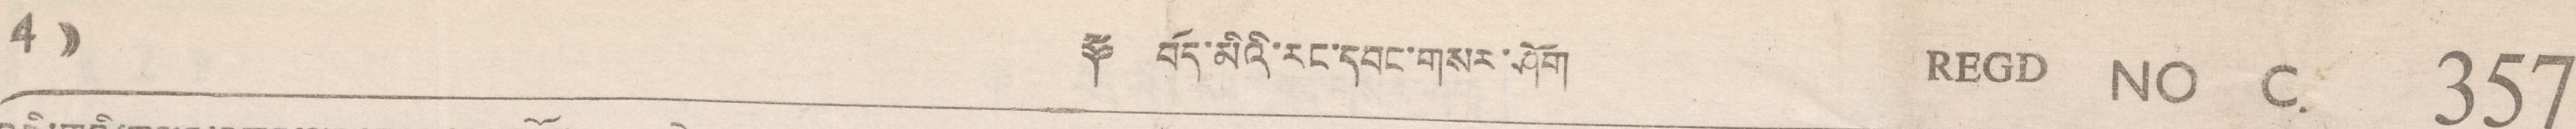4)) ༈ བོད་མིའི་རང་དབང་གསར་ཤོག REGD NO C 357
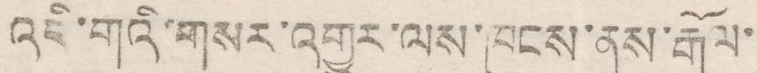འདི་གའི་གསར་འགྱུར་ལས་ཁུངས་ནས་རྒོལ་
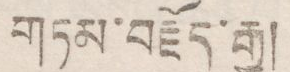གཏམ་བརྗོད་རྒྱུ།
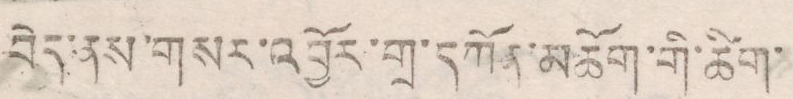བེད་ནས་གསར་འབྱོར་གྲ་དཀོན་མཆོག་གི་ཚིག་
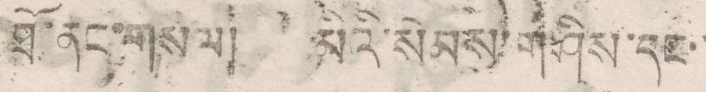ཐོ་ནང་གསལ། མིའི་སེམས་གཤིས་དང་
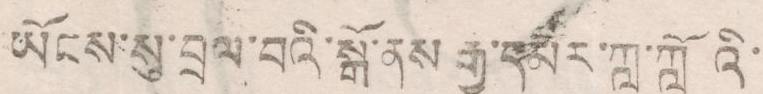ཡོངས་སུ་བྲལ་བའི་སྒོ་ནས་རྒྱ་དམར་གླ་གློའི་
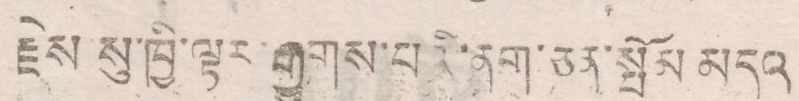རྗེས སུ་ཁྱི་ལྟར་རྒྱུགས་པའི་ནག་ཅན་སྤོམ མདའ
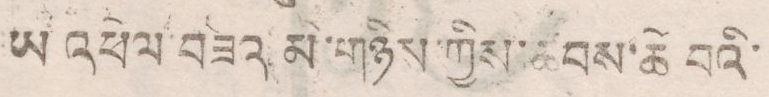ཡ འཕེལ བཟའ མི་གཉིས་ཀྱིས་ཚབས་ཆེ བའི་
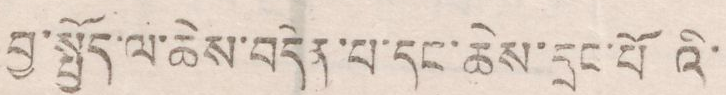བྱ་སྤྱོད་ལ་ཆེས་བདེན་པ་དང་ཆེས་དྲང་པོའི་
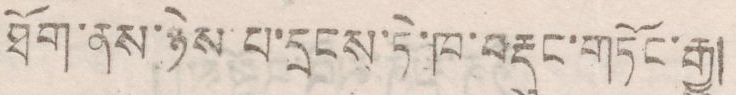ཐོག་ནས་ཉེས་པ་དྲངས་ཏེ་ཁ་བརྡུང་གཏོང་རྒྱུ།
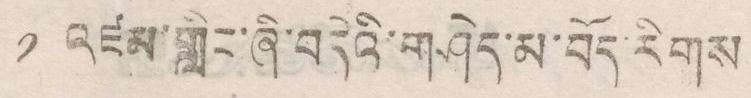༡ འཛམ་གླིང་ཞི་བདེའི་གཤེད་མ་བོད་རིགས
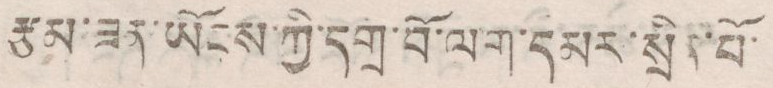རྩམ་ཟན་ཡོངས་ཀྱི་དགྲ་བོ་ལག་དམར་སྲིན་པོ་
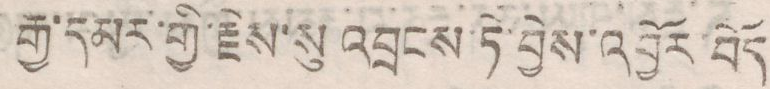རྒྱ་དམར་གྱི་རྗེས་སུ འབྲངས་ཏེ་བྱེས་འབྱོར་བོད
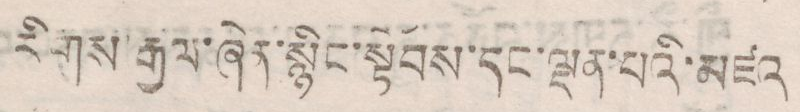རིགས་རྒྱལ་ཞེན་སྙིང་སྟོབས་དང་ལྡན་པའི་མཛའ
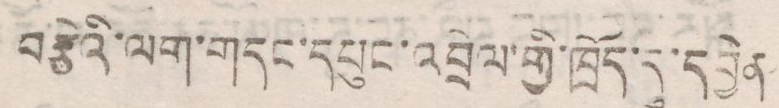བརྩེའི་ལག་གདང་དཔུང་འབྲེལ་གྱི་ཁྲོད་དུ་དབྱིན་
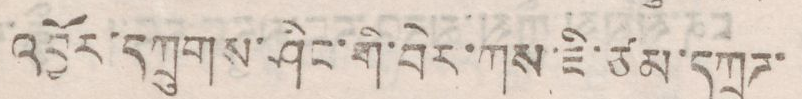འབྱོར་དཀྲུགས་ཤིང་གི་བེར་ཀས་ཇི་ཙམ་དཀྲུཌ་
